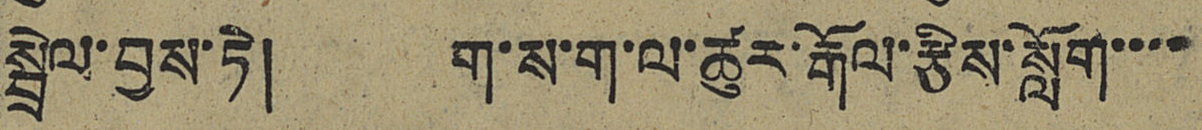སྦྲེལ་བྱས་ཏེ། ག་ས་ག་ལ་ཚུར་རྒོལ་རྩིས་སློག་་་་
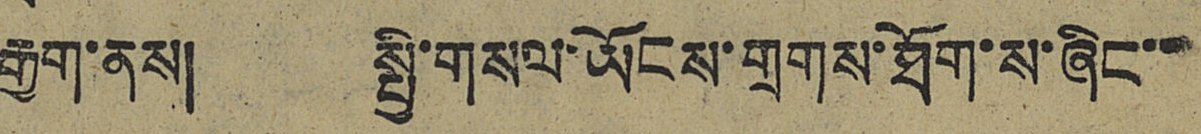རྒྱག་ནས། སྤྱི་གསལ་ཡོངས་གྲགས་ཐོག་ས་ཞིང་་
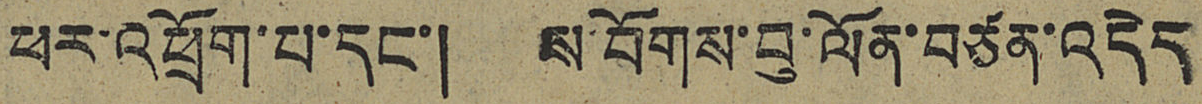ཕར་འཕྲོག་པ་དང་། ས་བོགས་བུ་ལོན་བཙན་འདེད
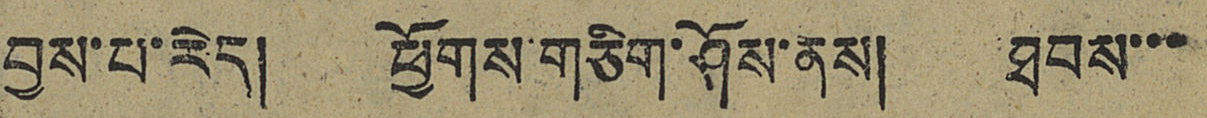བྱས་པ་རེད། ཕྱོགས་གཅིག་ཤོས་ནས། ཐབས་་་
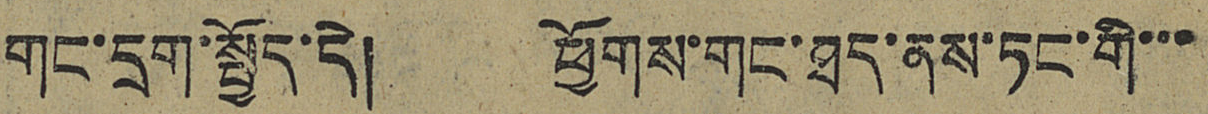གང་དྲག་སྤྱོད་དེ། ཕྱོགས་གང་ཐད་ནས་ཏང་གི་་་
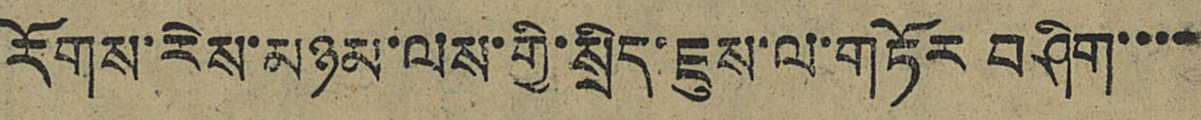རོགས་རེས་མཉམ་ལས་གྱི་སྲིད་ཇུས་ལ་གཏོར་བཤིག་་་་
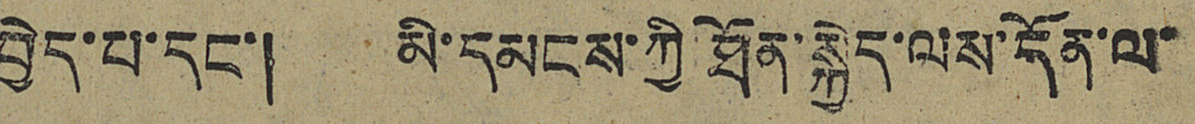བྱེད་པ་དང་། མི་དམངས་ཀྱི་ཐོན་སྐྱེད་ལས་དོན་ལ་
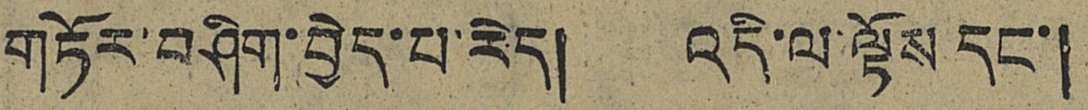གཏོར་བཤིག་བྱེད་པ་རེད། འདི་ལ་ལྟོས དང་།
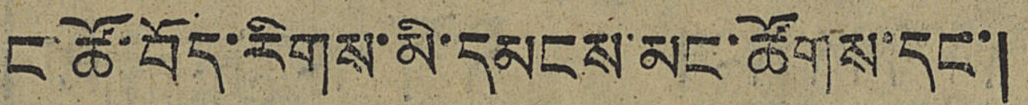ང་ཚོ་བོད་རིགས་མི་དམངས་མང་ཚོགས་དང་།
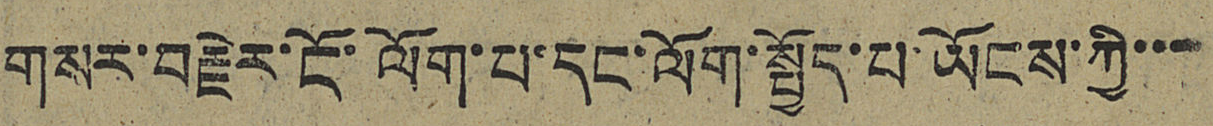གསར་བརྗེར་ངོ་ལོག་པ་དང་ལོག་སྤྱོད་པ་ཡོངས་ཀྱི་་་
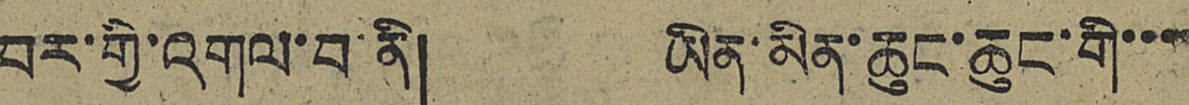བར་གྱི་འགལ་བ་ནི། ཡིན་མིན་ཆུང་ཆུང་གི་་་
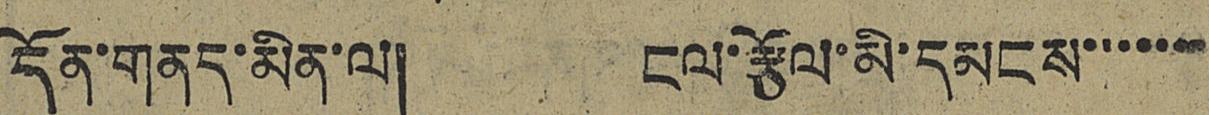དོན་གནད་མིན་ལ། ངལ་རྩོལ་མི་དམངས་་་་་་་
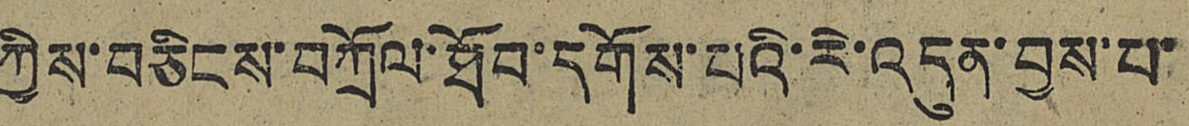ཀྱིས་བཅིངས་བཀྲོལ་ཐོབ་དགོས་པའི་རེ་འདུན་བྱས་པ་
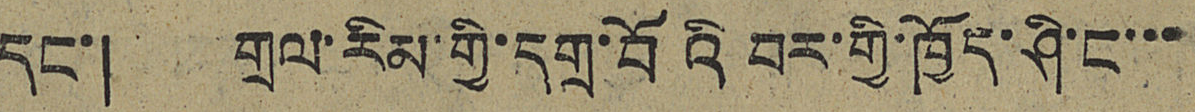དང་། གྲལ་རིམ་གྱི་དགྲ་བོའི བར་གྱི་ཁྱོད་ཤི་ང་་་
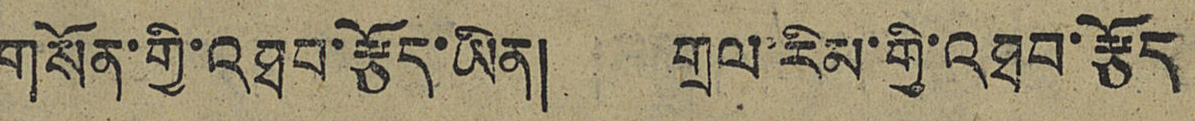གསོན་གྱི་འཐབ་རྩོད་ཡིན། གྲལ་རིམ་གྱི་འཐབ་རྩོད
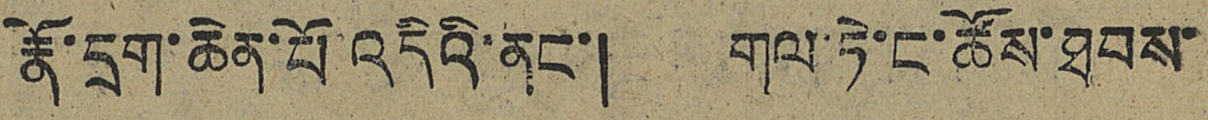རྣོ་དྲག་ཆེན་པོ་འདིའི་ནང་། གལ་ཏེ་ང་ཚོས་ཐབས་
